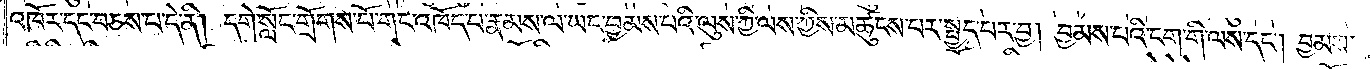འཁོར་དང་བཅས་པ་དེ་ནི། དགེ་སློང་གྲོགས་པོ་གང་འཁོད་པ་རྣམས་ལ་ཡང་བྱམས་པའི་ལུས་ཀྱི་ལས་ཀྱི་མཚུངས་པར་སྤྱད་པར་བྱ། བྱམས་པའི་ངག་གི་ལས་དང༌། བྱམས་
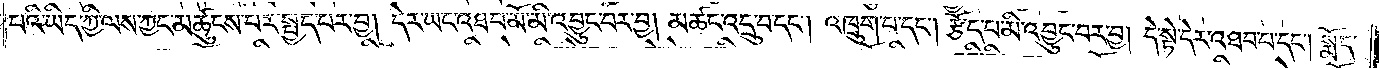པའི་ཡིད་ཀྱི་ལས་ཀྱང་མཚུངས་པར་སྤྱད་པར་བྱ། དེར་ཡང་འཐབ་མོ་མི་འབྱུང་བར་བྱ། མཚང་འདྲུ་བ་དང༌། འཁྲུག་པ་དང༌། རྩོད་པ་མི་འབྱུང་བར་བྱ། དེ་སྟེ་དེར་འཐབ་པ་དང༌། སྨོད་
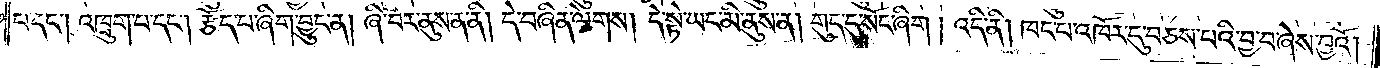པ་དང༌། འཁྲུག་པ་དང༌། རྩོད་པ་ཞིག་བྱུང་ན། ཞི་བར་ནུས་ན་ནི། དེ་བཞིན་ལེགས། དེ་སྟེ་ཡང་མི་ནུས་ན། གུད་དུ་སོང་ཞིག །འདི་ནི། ཁང་པ་འཁོར་དུ་བཅས་པའི་བྱ་བ་ཞེས་བྱའོ།
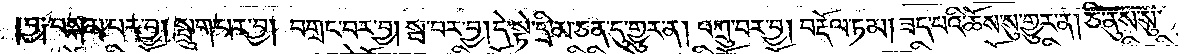བྱ༑ བསྐམ་པར་བྱ། སྤྲུག་པར་བྱ། བགྲང་བར་བྱ། སྦ་བར་བྱ། དེ་སྟེ་དྲི་མ་ཅན་དུ་གྱུར་ན། བཀྲུ་བར་བྱ། བརྡོལ་ཏ་མ། ཟད་པའི་ཆོས་སུ་གྱུར་ན། ཅི་ནུས་སུ་
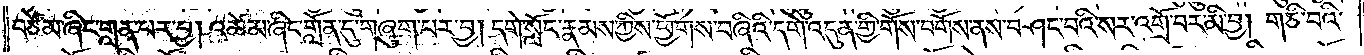བཙེམ་ཞིང་གླན་པར་བྱ། འཚེམ་ཞིང་གློན་དུ་གཞུག་པར་བྱ། དགེ་སློང་རྣམས་ཀྱིས་ཕྱོགས་བཞིའི་དགེ་འདུན་གྱི་གོས་བགོས་ནས་བཤང་བའི་སར་འགྲོ་བར་མི་བྱ། གཅི་བའི་
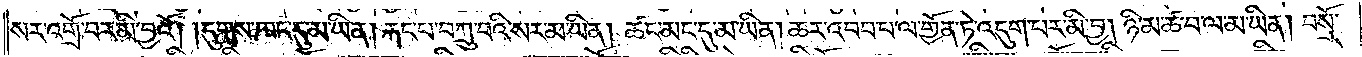སར་འགྲོ་བར་མི་བྱའོ། །དུགས་ཁང་དུ་མ་ཡིན། རྐང་པ་བཀྲུ་བའི་སར་མ་ཡིན། ཚང་མང་དུ་མ་ཡིན། ཆར་འབབ་པ་ལ་གྱོན་ཏེ་འདུག་པར་མི་བྱ། ཉི་མ་ཚ་བ་ལ་མ་ཡིན། བསྲོ་
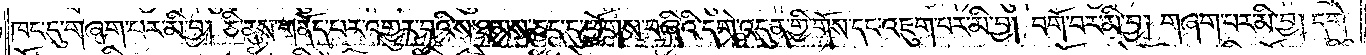ཁང་དུ་གཞག་པར་མི་བྱ། ཅི་ནས་གནོད་པར་འགྱུར་བའི་ས་ཐམས་ཅད་དུ་ཕྱོགས་བཞིའི་དགེ་འདུན་གྱི་གོས་དང་འཇུག་པར་མི་བྱ། བགོ་བར་མི་བྱ། གཞག་པར་མི་བྱ། དགེ་
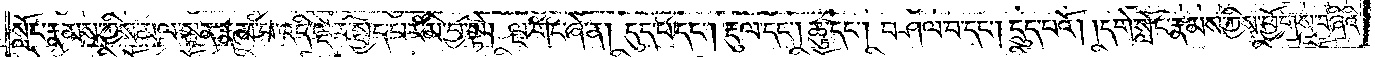སློང་རྣམས་ཀྱིས་མལ་སྟན་རྣམ་པ་འདི་ལྔར་སྤྱད་པར་མི་བྱ་སྟེ། ལྔ་གང་ཞེ་ན། དུད་པ་དང༌། རྡུལ་དང༌། ཆུ་དང༌། བཤལ་བ་དང༌། དྲུད་པའོ། །དགེ་སློང་རྣམས་ཀྱིས་ཕྱོགས་བཞིའི་
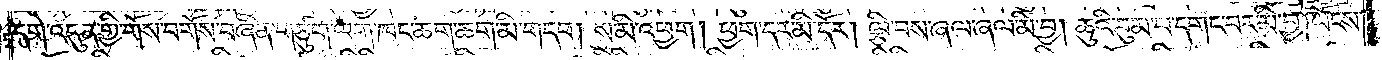དགེ་འདུན་གྱི་གོས་བགོས་བཞིན་གཙུག་ལག་ཁང་ཆག་ཆག་མི་གདབ། ས་མི་འཕྱག །ཕྱག་དར་མི་དོར། ལྕི་བར་ཞལ་ཞལ་མི་བྱ། ཆུའི་བུམ་པ་དགང་བར་མི་བྱ། ཡོངས་
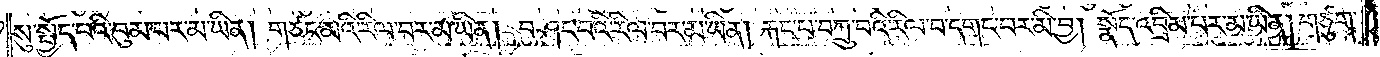སུ་སྤྱོད་པའི་བུམ་པར་མ་ཡིན། གཙང་མའི་རིལ་བར་མ་ཡིན། བཤང་བའི་རིལ་བར་མ་ཡིན། རྐང་པ་བཀྲུ་བའི་རིལ་བ་དགང་བར་མི་བྱ། སྣོད་འབྲིམ་པར་མ་ཡིན། གཙུག་
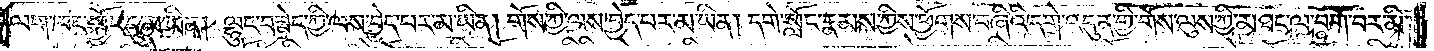ལག་ཁང་སྐྱོང་དུ་མ་ཡིན། ལྷུང་བཟེད་ཀྱི་ལས་བྱེད་པར་མ་ཡིན། གོས་ཀྱི་ལས་བྱེད་པར་མ་ཡིན། དགེ་སློང་རྣམས་ཀྱིས་ཕྱོགས་བཞིའི་དགེ་འདུན་གྱི་གོས་ལུས་ཀྱི་མཐང་ལ་བགོ་བར་མི་
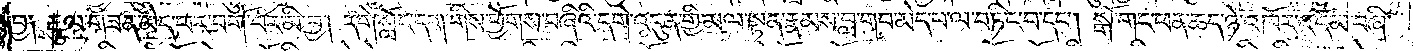བྱ། རྡུལ་གཟན་མེད་པར་བགོ་བར་མི་བྱ། དགེ་སློང་དག་གིས་ཕྱོགས་བཞིའི་དགེ་འདུན་གྱི་མལ་སྟན་རྣམས་བླ་གབ་མེད་པ་ལ་བཏིང་བ་དང༌། སྒོ་གང་ཕན་ཆད་ཉེ་འཁོར་འདོམ་བཞི་
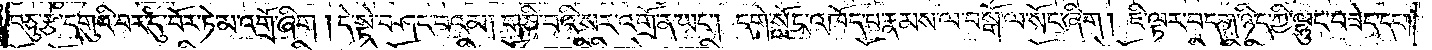བཅུ་རྩ་དགུའི་བར་དུ་བོར་ཏེ་མ་འགྲོ་ཞིག །དེ་སྟེ་བཤང་པའམ། གཅི་བའི་སར་འགྲོན་ཡང༌། དགེ་སློང་འཁོད་པ་རྣམས་ལ་བསྒོ་ལ་སོང་ཞིག །ཇི་ལྟར་བདག་ཉིད་ཀྱི་ལྷུང་བཟེད་དང༌།
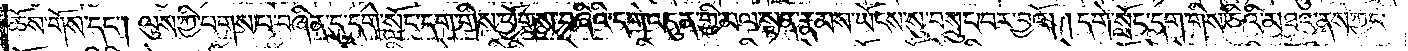ཆོས་གོས་དང༌། ལུས་ཀྱི་པགས་པ་བཞིན་དུ་དགེ་སློང་དག་གིས་ཕྱོགས་བཞིའི་དགེ་འདུན་གྱི་མལ་སྟན་རྣམས་ཡོངས་སུ་བསྲུང་བར་བྱའོ། །དགེ་སློང་དག་གིས་ཅིའི་མཐའ་ནས་ཀྱང་
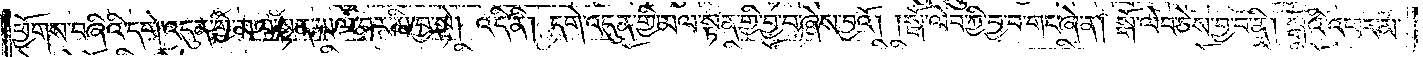ཕྱོགས་བཞིའི་དགེ་འདུན་གྱི་མལ་སྟན་ཡལ་བར་མི་བྱ་སྟེ། འདི་ནི། དགེ་འདུན་གྱི་མལ་སྟན་གྱི་བྱ་བ་ཞེས་བྱའོ། །སྒོ་ལེབ་ཀྱི་བྱ་བ་གང་ཞེ་ན། སྒོ་ལེབ་ཅེས་བྱ་བ་ནི། སྒོའི་འཕར་མ་
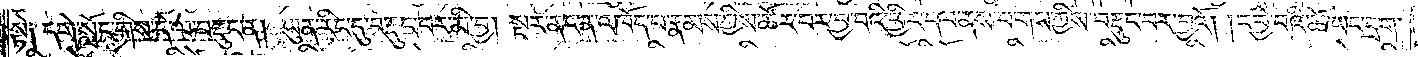སྟེ༑ དགེ་སློང་གིས་དེ་ལ་བརྡུང་ན། ཡུན་རིང་དུ་བརྡུང་བར་མི་བྱ། སྔར་ནང་ན་འཁོད་པ་རྣམས་ཀྱིས་ཚོར་བར་བྱ་བའི་ཕྱིར་དལ་ནས་པགས་ཀྱིས་བརྡུང་བར་བྱའོ། །དབྱེ་བའི་ཚེ་ཡང་དྲག་
